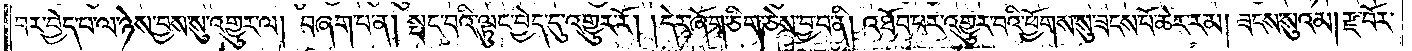བར་བྱེད་པ་ལ་ཉེས་བྱས་སུ་འགྱུར་ལ། བཞག་པ་ན། སྤང་བའི་ལྟུང་བྱེད་དུ་འགྱུར་རོ། །དེར་ཞོག་ཅིག་ཅེས་བྱ་བ་ནི། འཐོབ་པར་འགྱུར་བའི་ཕྱོགས་སུ་ཟངས་པོ་ཆེར་རམ། ཟངས་སུའམ། རྫ་བོར་
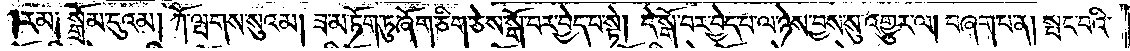རམ། སྒྲོམ་དུའམ། ཀོ་ལྤགས་སུའམ། ཟ་མ་ཏོག་ཏུ་ཞོག་ཅིག་ཅེས་སྒོ་བར་བྱེད་པ་སྟེ། དེ་སྒོ་བར་བྱེད་པ་ལ་ཉེས་བྱས་སུ་འགྱུར་ལ། བཞག་པ་ན། སྤང་བའི་
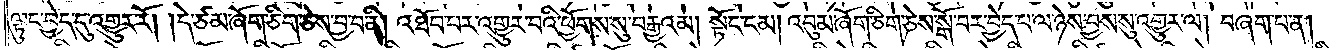ལྟུང་བྱེད་དུ་འགྱུར་རོ། །དེ་ཙམ་ཞོག་ཅིག་ཅེས་བྱ་བ་ནི། འཐོབ་པར་འགྱུར་བའི་ཕྱོགས་སུ་བརྒྱའམ། སྟོང་ངམ། འབུམ་ཞོག་ཅིག་ཅེས་སྒོ་བར་བྱེད་པ་ལ་ཉེས་བྱས་སུ་འགྱུར་ལ། བཞག་པ་ན།
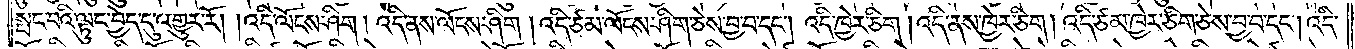སྤང་བའི་ལྟུང་བྱེད་དུ་འགྱུར་རོ། །འདི་ལོངས་ཤིག །འདི་ནས་ལོངས་ཤིག །འདི་ཙམ་ལོངས་ཤིག་ཅེས་བྱ་བ་དང༌། འདི་ཁྱེར་ཅིག །འདི་ནས་ཁྱེར་ཅིག །འདི་ཙམ་ཁྱེར་ཅིག་ཅེས་བྱ་བ་དང༌། འདི་
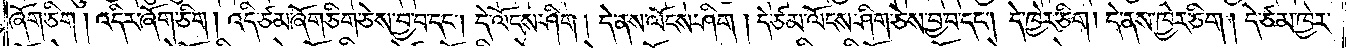ཞོག་ཅིག ། འདིར་ཞོག་ཅིག །འདི་ཙམ་ཞོག་ཅིག་ཅེས་བྱ་བ་དང༌། དེ་ལོངས་ཤིག །དེ་ནས་ལོངས་ཤིག །དེ་ཙམ་ལོངས་ཤིག་ཅེས་བྱ་བ་དང༌། དེ་ཁྱེར་ཅིག། དེ་ནས་ཁྱེར་ཅིག ། དེ་ཙམ་ཁྱེར་
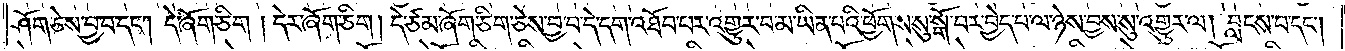ཤོག་ཅེས་བྱ་བ་དང༌། དེ་ཞོག་ཅིག ། དེར་ཞོག་ཅིག ། དེ་ཙམ་ཞོག་ཅིག་ཅེས་བྱ་བ་དེ་དག་འཐོབ་པར་འགྱུར་བ་མ་ཡིན་པའི་ཕྱོགས་སུ་སྒོ་བར་བྱེད་པ་ལ་ཉེས་བྱས་སུ་འགྱུར་ལ། བླངས་པ་དང༌།
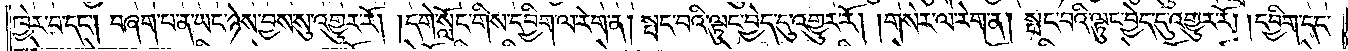ཁྱེར་བ་དང༌། བཞག་པ་ན་ཡང་ཉེས་བྱས་སུ་འགྱུར་རོ། །དགེ་སློང་གིས་དབྱིག་ལ་རེག་ན། སྤང་བའི་ལྟུང་བྱེད་དུ་འགྱུར་རོ། །གསེར་ལ་རེག་ན། སྤང་བའི་ལྟུང་བྱེད་དུ་འགྱུར་རོ། །དབྱིག་དང་
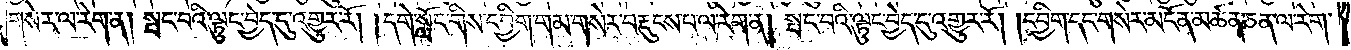གསེར་ལ་རེག་ན། སྤང་བའི་ལྟུང་བྱེད་དུ་འགྱུར་རོ། །དགེ་སློང་གིས་དབྱིག་གམ་གསེར་བརྡུངས་པ་ལ་རེག་ན། སྤང་བའི་ལྟུང་བྱེད་དུ་འགྱུར་རོ། །དབྱིག་དང་གསེར་མངོན་མཚན་ཅན་ལ་རེག་
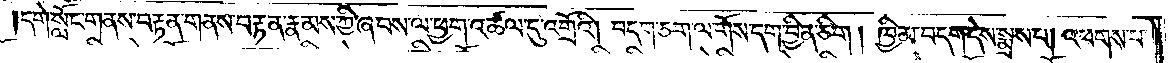།དགེ་སློང་གནས་བརྟན་གནས་བརྟན་རྣམས་ཀྱི་ཞབས་ལ་ཕྱག་འཚལ་དུ་འགྲོའི། བདག་ཅག་ལ་གོས་དག་བྱིན་ཅིག །ཁྱིམ་བདག་དེས་སྨྲས་པ། འཕགས་པ་
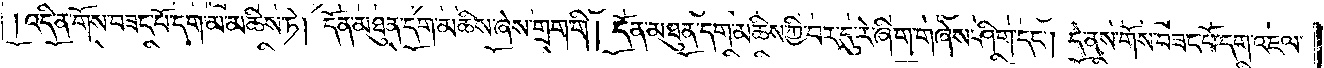དག ། འདི་ན་གོས་བཟང་པོ་དག་མ་མཆིས་ཏེ། དོན་མཐུན་དག་མཆིས་ཞེས་གྲག་གི ། དོན་མཐུན་དག་མཆིས་ཀྱི་བར་དུ་རེ་ཞིག་གཞེས་ཤིག་དང༌། དེ་ནས་གོས་བཟང་པོ་དག་འཇལ་
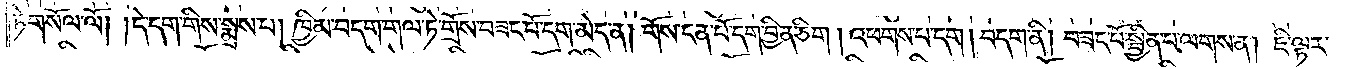ཏེ་གསོལ་ལོ། །དེ་དག་གིས་སྨྲས་པ། ཁྱིམ་བདག་གལ་ཏེ་གྲོས་བཟང་པོ་དག་མེད་ན། གོས་ངན་པོ་དག་བྱིན་ཅིག །འཕགས་པ་དག །བདག་ནི། བཟང་པོ་སྦྱིན་པ་ལགས་ན། ཇི་ལྟར་
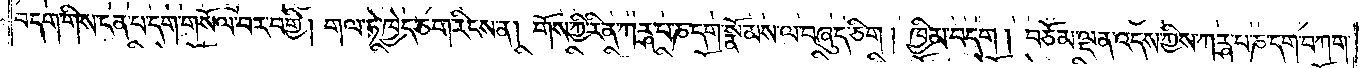བདག་གིས་ངན་པ་དག་གསོལ་བར་བགྱི། གལ་ཏེ་ཁྱེད་ཅག་རིངས་ན། གོས་ཀྱི་རིན་ཀཪྴ་པ་ཎ་དག་སྣོམས་ལ་བཞུད་ཅིག །ཁྱིམ་བདག །བཅོམ་ལྡན་འདས་ཀྱིས་ཀཪྴ་པ་ཎ་དག་བཀག་
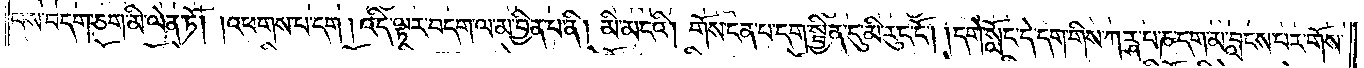བས་བདག་ཅག་མི་ལེན་ཏོ། །འཕགས་པ་དག །འདི་ལྟར་བདག་ལ་མ་བྱིན་པ་ནི། མི་མངའི། གོས་ངན་པ་དག་སྦྱིན་དུ་མི་རུང་ངོ༌། །དགེ་སློང་དེ་དག་གིས་ཀཪྴ་པ་ཎ་དག་མ་བླངས་པར་གོས་
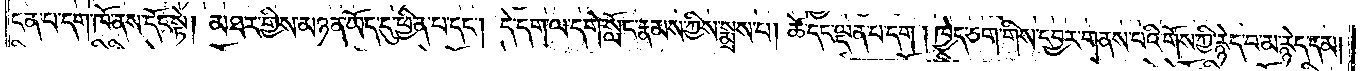ངན་པ་དག་ཁོ་ནས་དོང་སྟེ། མཐར་གྱིས་མཉན་ཡོད་དུ་ཕྱིན་པ་དང༌། དེ་དག་ལ་དགེ་སློང་རྣམས་ཀྱིས་སྨྲས་པ། ཚེ་དང་ལྡན་པ་དག ། ཁྱེད་ཅག་གིས་དབྱར་གནས་པའི་གོས་ཀྱི་རྙེད་པ་མ་རྙེད་དམ་
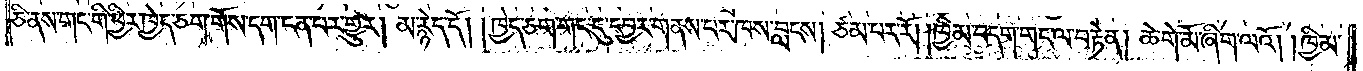ཅི་ནས་གང་གི་ཕྱིར་ཁྱེད་ཅག་གོས་དག་ངན་པར་གྱུར། མ་རྙེད་དོ། །ཁྱེད་ཅག་གང་དུ་དབྱར་གནས་པར་ཁས་བླངས། ཙམ་པར་རོ། །ཁྱིམ་བདག་གང་ལ་བརྟེན། ཆེ་གེ་མོ་ཞིག་ལའོ། །ཁྱིམ་
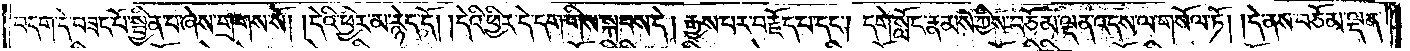བདག་དེ་བཟང་པོ་སྦྱིན་པ་ཞེས་གྲགས་སོ། །དེའི་ཕྱིར་མ་རྙེད་དོ། །དེའི་ཕྱིར་དེ་དག་གིས་སྐབས་དེ། རྒྱས་པར་བརྗོད་པ་དང༌། དགེ་སློང་རྣམས་ཀྱིས་བཅོམ་ལྡན་འདས་ལ་གསོལ་ཏོ། །དེ་ནས་བཅོམ་ལྡན་
